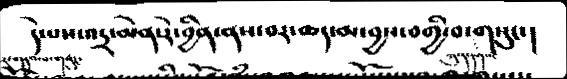དེ་པས་འདྲ་མེན་རེ་བྱིན་ནས་བར་ཆད་མ་བྱས་བགྱི་བ་གསུང་།
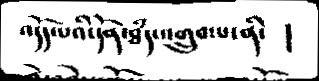འདོད་པའི་དོན་ཐཾད་འགྲུབ་པ་ནི་  །
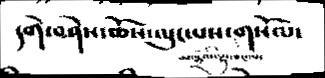དགེ་བཤེས་ཆོས་ལུང་པས་གསོལ་
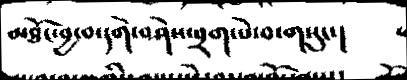མཐོང་བྱ་བ་དགེ་བཤེས་བྲག་པེ་བ་གསུང་།
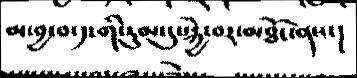མ་བྱ་བ་༡་གི་རུམ་དུ་སྐྱེ་བར་མཐོང་བས་།
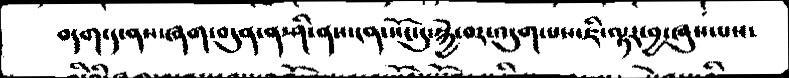བདག་ད་ནས་ཞག་བདུན་ན་ཤི་ནས་ངན་སོང་དུ་སྐྱེ་བར་འདུག་པས་ཇི་ལྟར་བྱ་ཞུས་པས་
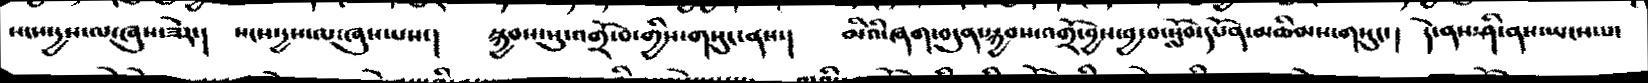སངས་དྱས་ཞུས་ཟེར་།  སངས་དྱས་ལ་ཞུས་པས་།  སྐྱབས་སུ་འགྲོ་བ་གྱིས་གསུང་ནས་།  མིའི་ཞག་བདུན་སྐྱབས་འགྲོ་བྱས་བྱ་བ་སློབ་དཔོན་མཆིམས་གསུང་།  དེ་ནས་ཤི་ནས་སྤངས་པ་
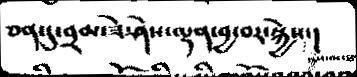ཅན་དུ་བྲམ་ཟེ་ཤེས་ལྡན་བྱ་བར་སྐྱེས་།
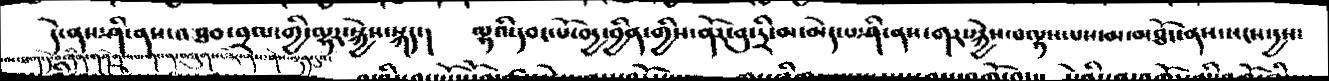དེ་ནས་ཤི་ནས་འཐབ་བྲལ་གྱི་ལྷར་སྐྱེས་སྐད་།  ལྷའི་དབང་པོ་བདྱ་བྱིན་གྱིས་ནོར་བུ་དྲི་མ་མེད་པ་ཤི་ནས་གར་སྐྱེས་བལྟས་པས་མ་མཐོང་ནས་སངས་དྱས་
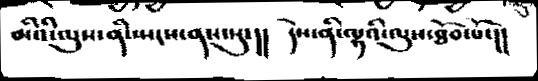མིའི་ལུས་ནི་སྤངས་ནས་སུ་།།  དེས་ནི་ལྷའི་ལུས་ཐོབ་པོ་།།
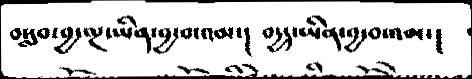བསླབ་བྱ་ལྔ་ཡིན་བྱ་བ་འམ་།  བདྱད་ཡིན་བྱ་བ་འམ་།
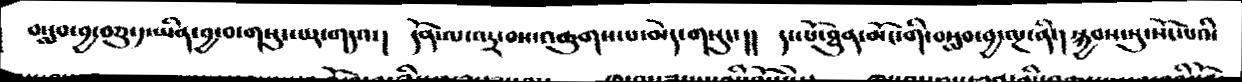བསླབ་བྱ་བཅུ་༡་ཡིན་བྱ་བ་གསུང་པར་གདའ་།  དོན་ལ་འདྲ་བས་འཆུགས་པ་མེད་གསུང་།།  དང་པོ་ཐུན་མོང་གི་བསླབ་བྱ་ལྔ་ནི་། སྐྱབས་སུ་སོང་པའི་
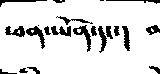ཕན་ཡོན་དང་།
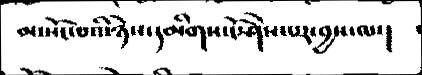མ་སོང་པའི་ཉེས་དམིགས་ངོ་ཤེས་པར་བྱས་ལ་།
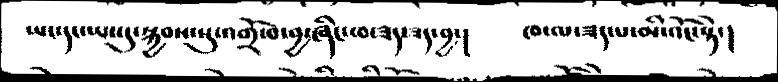ཡང་དང་ཡང་དུ་སྐྱབས་སུ་འགྲོ་བ་བྱ་ཞིང་ཁ་ཟད་ཟད་བྱ་།  ཁ་ལ་ཟད་པ་མི་འོང་སྟེ་།
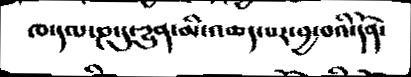ཁ དལ་ཎ་དུ་དྱུན་མི་འཆད་པར་བྱ་བའི་དོན་
